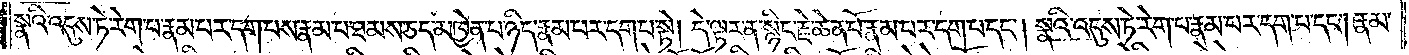སྣའི་འདུས་ཏེ་རེག་པ་རྣམ་པར་དག་པས་རྣམ་པ་ཐམས་ཅད་མཁྱེན་པ་ཉིད་རྣམ་པར་དག་པ་སྟེ། དེ་ལྟར་ན་སྙིང་རྗེ་ཆེན་པོ་རྣམ་པར་དག་པ་དང༌། སྣའི་འདུས་ཏེ་རེག་པ་རྣམ་པར་དག་པ་དང༌། རྣམ་
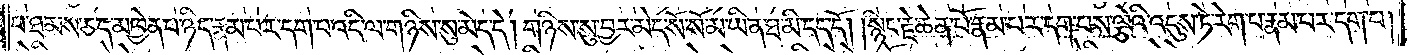པ་ཐམས་ཅད་མཁྱེན་པ་ཉིད་རྣམ་པར་དག་པ་འདི་ལ་གཉིས་སུ་མེད་དེ། གཉིས་སུ་བྱར་མེད་སོ་སོ་མ་ཡིན་ཐ་མི་དད་དོ། །སྙིང་རྗེ་ཆེན་པོ་རྣམ་པར་དག་པས་ལྕེའི་འདུས་ཏེ་རེག་པ་རྣམ་པར་དག་པ།
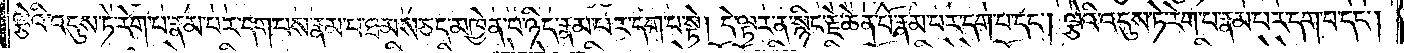ལྕེའི་འདུས་ཏེ་རེག་པ་རྣམ་པར་དག་པས་རྣམ་པ་ཐམས་ཅད་མཁྱེན་པ་ཉིད་རྣམ་པར་དག་པ་སྟེ། དེ་ལྟར་ན་སྙིང་རྗེ་ཆེན་པོ་རྣམ་པར་དག་པ་དང༌། ལྕེའི་འདུས་ཏེ་རེག་པ་རྣམ་པར་དག་པ་དང༌།
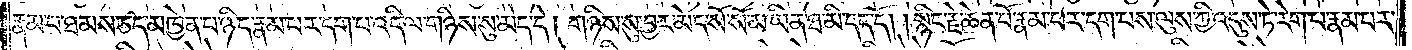རྣམ་པ་ཐམས་ཅད་མཁྱེན་པ་ཉིད་རྣམ་པར་དག་པ་འདི་ལ་གཉིས་སུ་མེད་དེ། གཉིས་སུ་བྱར་མེད་སོ་སོ་མ་ཡིན་ཐ་མི་དད་དོ། །སྙིང་རྗེ་ཆེན་པོ་རྣམ་པར་དག་པས་ལུས་ཀྱི་འདུས་ཏེ་རེག་པ་རྣམ་པར་
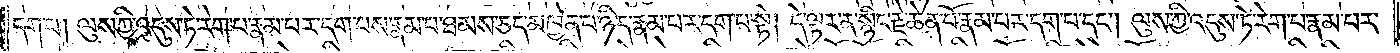དག་པ། ལུས་ཀྱི་འདུས་ཏེ་རེག་པ་རྣམ་པར་དག་པས་རྣམ་པ་ཐམས་ཅད་མཁྱེན་པ་ཉིད་རྣམ་པར་དག་པ་སྟེ། དེ་ལྟར་ན་སྙིང་རྗེ་ཆེན་པོ་རྣམ་པར་དག་པ་དང༌། ལུས་ཀྱི་འདུས་ཏེ་རེག་པ་རྣམ་པར་
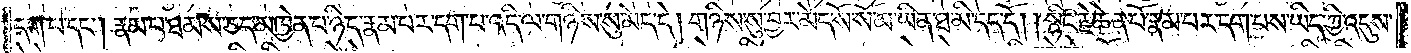དག་པ་དང༌། རྣམ་པ་ཐམས་ཅད་མཁྱེན་པ་ཉིད་རྣམ་པར་དག་པ་འདི་ལ་གཉིས་སུ་མེད་དེ། གཉིས་སུ་བྱར་མེད་སོ་སོ་མ་ཡིན་ཐ་མི་དད་དོ། །སྙིང་རྗེ་ཆེན་པོ་རྣམ་པར་དག་པས་ཡིད་ཀྱི་འདུས་
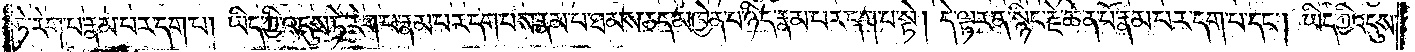ཏེ་རེག་པ་རྣམ་པར་དག་པ། ཡིད་ཀྱི་འདུས་ཏེ་རེག་པ་རྣམ་པར་དག་པས་རྣམ་པ་ཐམས་ཅད་མཁྱེན་པ་ཉིད་རྣམ་པར་དག་པ་སྟེ། དེ་ལྟར་ན་སྙིང་རྗེ་ཆེན་པོ་རྣམ་པར་དག་པ་དང༌། ཡིད་ཀྱི་འདུས་
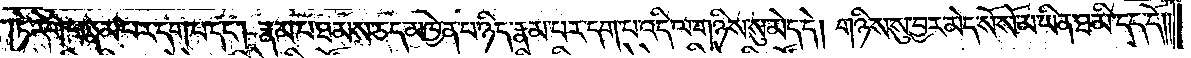ཏེ་རེག་པ་རྣམ་པར་དག་པ་དང༌། རྣམ་པ་ཐམས་ཅད་མཁྱེན་པ་ཉིད་རྣམ་པར་དག་པ་འདི་ལ་གཉིས་སུ་མེད་དེ། གཉིས་སུ་བྱར་མེད་སོ་སོ་མ་ཡིན་ཐ་མི་དད་དོ། །
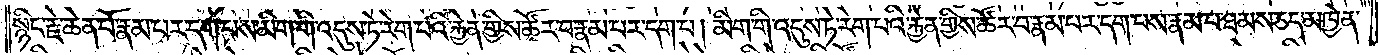སྙིང་རྗེ་ཆེན་པོ་རྣམ་པར་དག་པས་མིག་གི་འདུས་ཏེ་རེག་པའི་རྐྱེན་གྱིས་ཚོར་བ་རྣམ་པར་དག་པ། མིག་གི་འདུས་ཏེ་རེག་པའི་རྐྱེན་གྱིས་ཚོར་བ་རྣམ་པར་དག་པས་རྣམ་པ་ཐམས་ཅད་མཁྱེན་
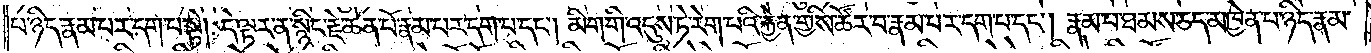པ་ཉིད་རྣམ་པར་དག་པ་སྟེ། དེ་ལྟར་ན་སྙིང་རྗེ་ཆེན་པོ་རྣམ་པར་དག་པ་དང༌། མིག་གི་འདུས་ཏེ་རེག་པའི་རྐྱེན་གྱིས་ཚོར་བ་རྣམ་པར་དག་པ་དང༌། རྣམ་པ་ཐམས་ཅད་མཁྱེན་པ་ཉིད་རྣམ་
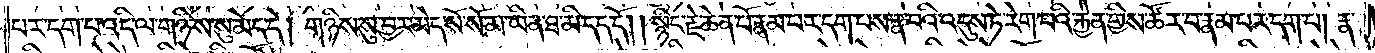པར་དག་པ་འདི་ལ་གཉིས་སུ་མེད་དེ། གཉིས་སུ་བྱར་མེད་སོ་སོ་མ་ཡིན་ཐ་མི་དད་དོ། །སྙིང་རྗེ་ཆེན་པོ་རྣམ་པར་དག་པས་རྣ་བའི་འདུས་ཏེ་རེག་པའི་རྐྱེན་གྱིས་ཚོར་བ་རྣམ་པར་དག་པ། རྣ་
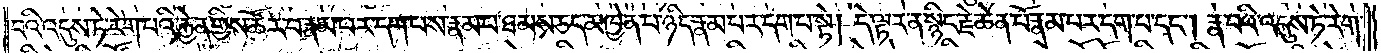བའི་འདུས་ཏེ་རེག་པའི་རྐྱེན་གྱིས་ཚོར་བ་རྣམ་པར་དག་པས་རྣམ་པ་ཐམས་ཅད་མཁྱེན་པ་ཉིད་རྣམ་པར་དག་པ་སྟེ། དེ་ལྟར་ན་སྙིང་རྗེ་ཆེན་པོ་རྣམ་པར་དག་པ་དང༌། རྣ་བའི་འདུས་ཏེ་རེག་
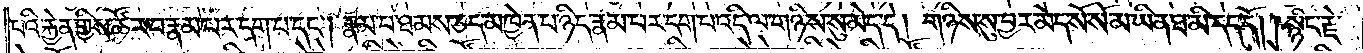པའི་རྐྱེན་གྱིས་ཚོར་བ་རྣམ་པར་དག་པ་དང༌། རྣམ་པ་ཐམས་ཅད་མཁྱེན་པ་ཉིད་རྣམ་པར་དག་པ་འདི་ལ་གཉིས་སུ་མེད་དེ། གཉིས་སུ་བྱར་མེད་སོ་སོ་མ་ཡིན་ཐ་མི་དད་དོ། །སྙིང་རྗེ་
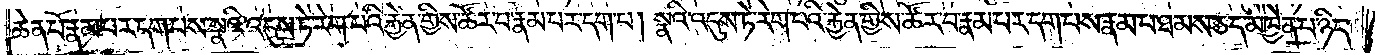ཆེན་པོ་རྣམ་པར་དག་པས་སྣའི་འདུས་ཏེ་རེག་པའི་རྐྱེན་གྱིས་ཚོར་བ་རྣམ་པར་དག་པ། སྣའི་འདུས་ཏེ་རེག་པའི་རྐྱེན་གྱིས་ཚོར་བ་རྣམ་པར་དག་པས་རྣམ་པ་ཐམས་ཅད་མཁྱེན་པ་ཉིད་
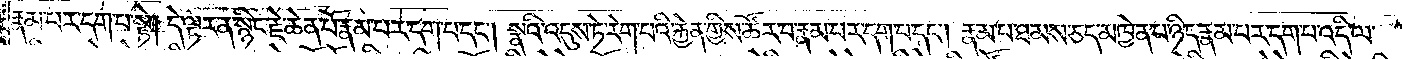རྣམ་པར་དག་པ་སྟེ། དེ་ལྟར་ན་སྙིང་རྗེ་ཆེན་པོ་རྣམ་པར་དག་པ་དང༌། སྣའི་འདུས་ཏེ་རེག་པའི་རྐྱེན་གྱིས་ཚོར་བ་རྣམ་པར་དག་པ་དང༌། རྣམ་པ་ཐམས་ཅད་མཁྱེན་པ་ཉིད་རྣམ་པར་དག་པ་འདི་ལ་
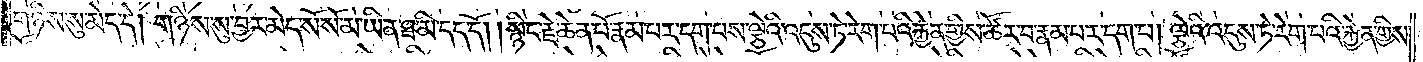གཉིས་སུ་མེད་དེ། གཉིས་སུ་བྱར་མེད་སོ་སོ་མ་ཡིན་ཐ་མི་དད་དོ། །སྙིང་རྗེ་ཆེན་པོ་རྣམ་པར་དག་པས་ལྕེའི་འདུས་ཏེ་རེག་པའི་རྐྱེན་གྱིས་ཚོར་བ་རྣམ་པར་དག་པ། ལྕེའི་འདུས་ཏེ་རེག་པའི་རྐྱེན་གྱིས་
